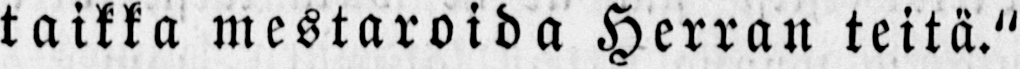taikka mestaroida Herran teitä."
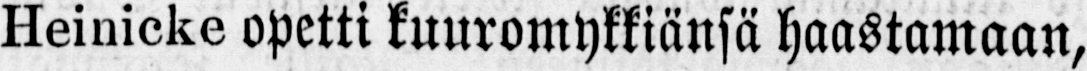Heinicke opetti kuuromykkiänsä haastamaan,
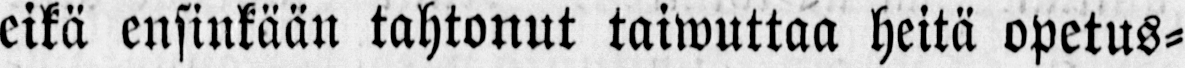eikä ensinkään tahtonut taiwuttaa heitä opetus-
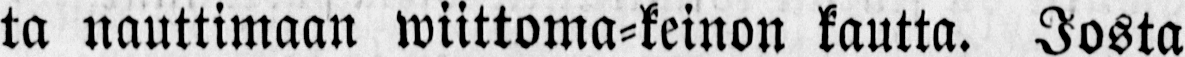ta nauttimaan wiittoma-keinon kautta. Josta
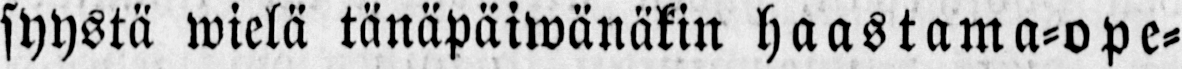syystä wielä tänäpäiwänäkin haastama-ope-
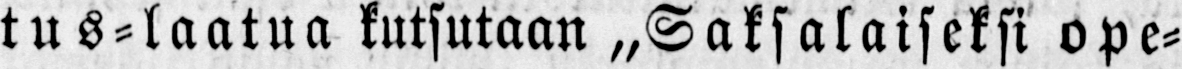tus-laatua kutsutaan „Saksalaiseksi ope-
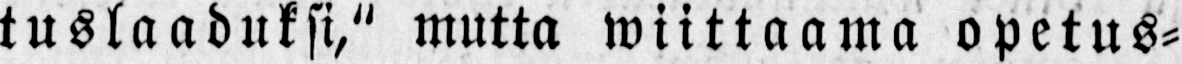tuslaaduksi," mutta wiittaama opetus-
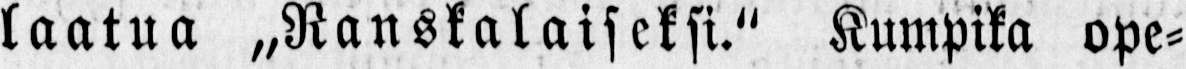laatua „Ranskalaiseksi." Kumpika ope-
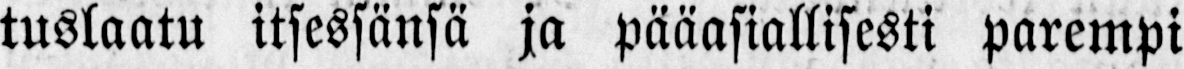tuslaatu itsessänsä ja pääasiallisesti parempi
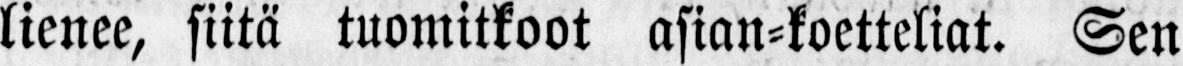lienee, siitä tuomitkoot asian-koetteliat. Sen
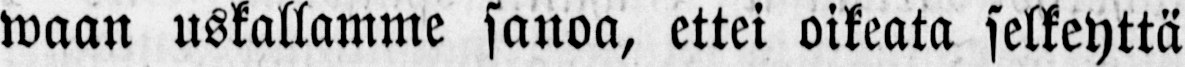waan uskallamme sanoa, ettei oikeata selkeyttä
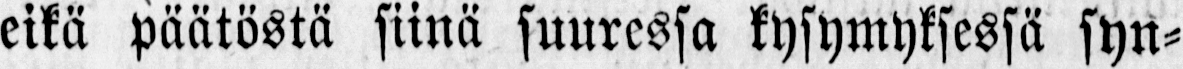eikä päätöstä siinä suuressa kysymyksessä syn-
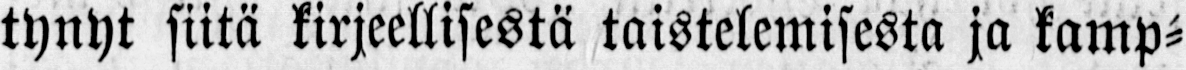tynyt siitä kirjeellisestä taistelemisesta ja kamp-
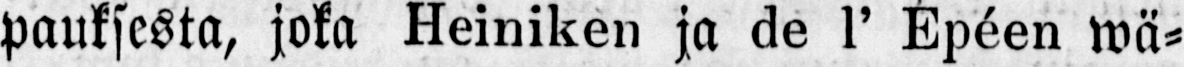pauksesta, joka Heiniken ja de l' Epéen wä-
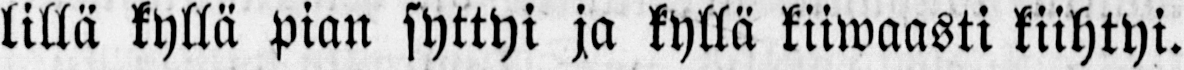lillä kyllä pian syttyi ja kyllä kiiwaasti kiihtyi.
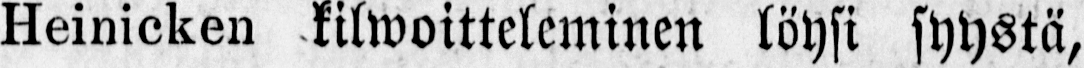Heinicken kilwoitteleminen löysi syystä,
